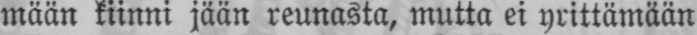mään kiinni jään reunasta, mutta ei yrittämään
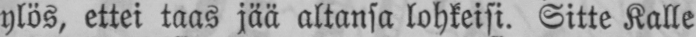ylös, ettei taas jää altansa lohkeisi. Sitte Kalle
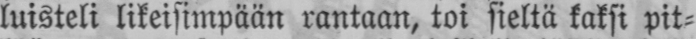luisteli likeisimpään rantaan, toi sieltä kaksi pit-
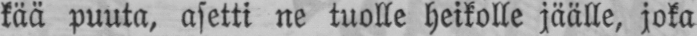kää puuta, asetti ne tuolle heikolle jäälle, joka
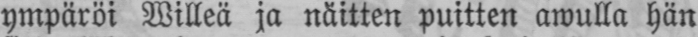ympäröi Willeä ja näitten puitten awulla hän
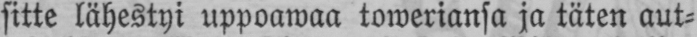sitte lähestyi uppoawaa toweriansa ja täten aut-
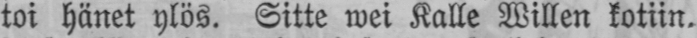toi hänet ylös. Sitte wei Kalle Willen kotiin,
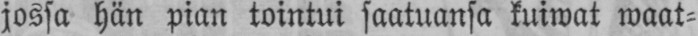jossa hän pian tointui saatuansa kuiwat waat-
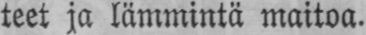teet ja lämmintä maitoa.
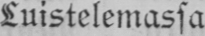Luistelemassa.
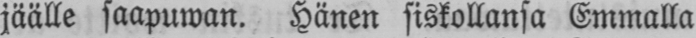jäälle saapuwan. Hänen siskollansa Emmalla
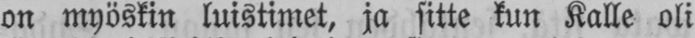on myöskin luistimet, ja sitte kun Kalle oli
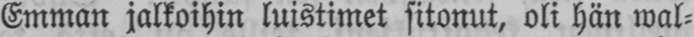Emman jalkoihin luistimet sitonut, oli hän wal-
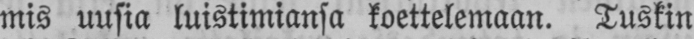mis uusia luistimiansa koettelemaan. Tuskin
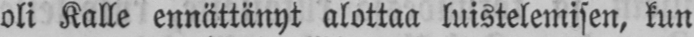oli Kalle ennättänyt alottaa luistelemisen, kun
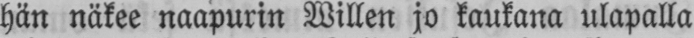hän näkee naapurin Willen jo kaukana ulapalla
